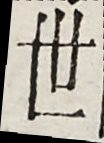世
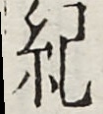紀
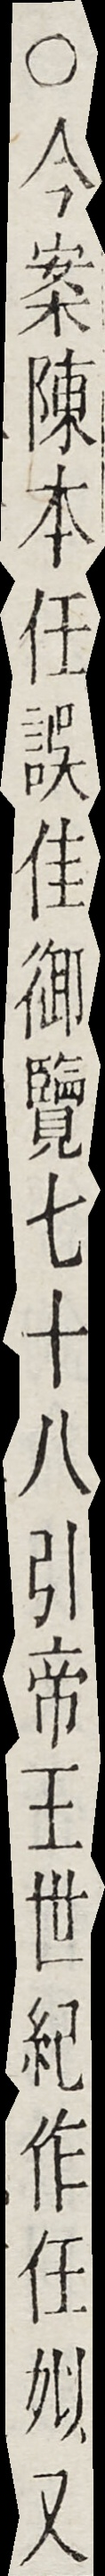○今案陳本任誤佳御覽七十八引帝王世紀作任姒又
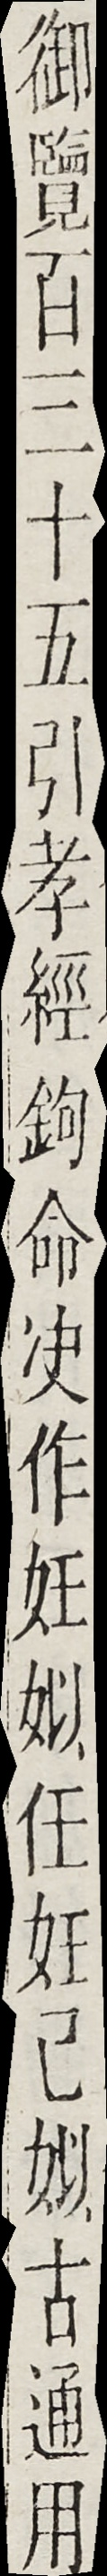御覽百三十五引孝經鉤命決作妊姒任妊己姒古通用
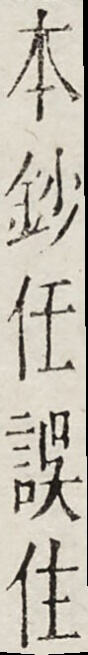本鈔任誤住
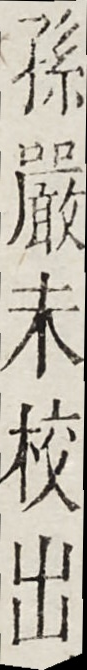孫嚴未校出
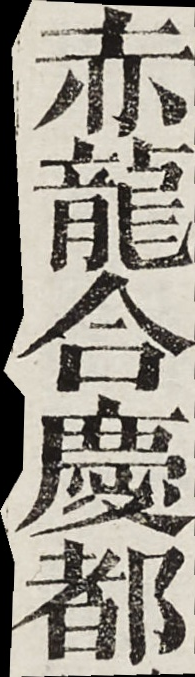赤龍合慶都
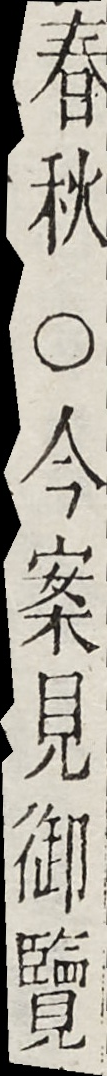春秋○今案見御覽
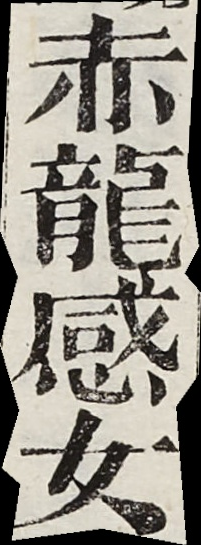赤龍感女
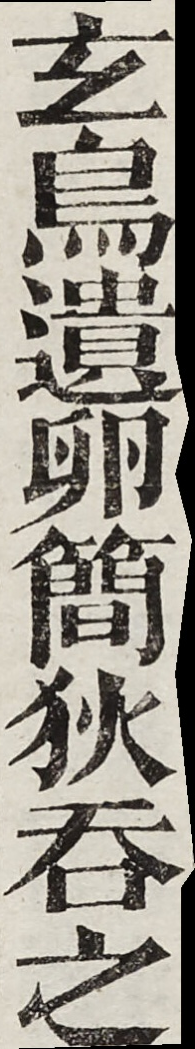玄鳥遺卵簡狄吞之
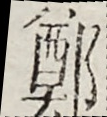鄭
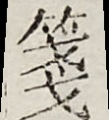箋
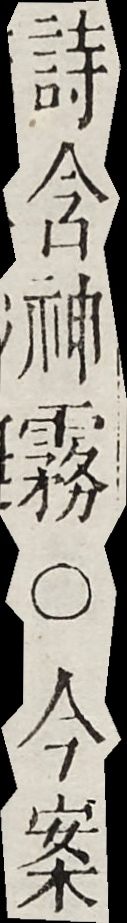詩含神霧○今案
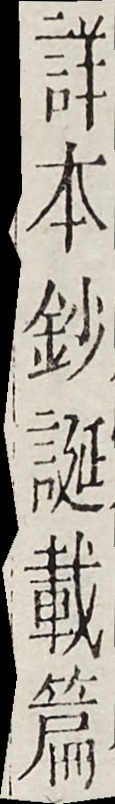詳本鈔誕載篇
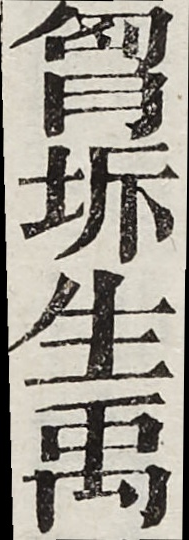胷坼生禹
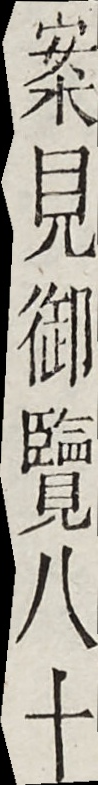案見御覽八十
